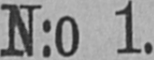N:o 1.
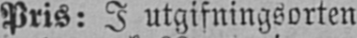Pris: I utgifningsorten
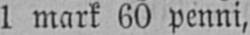1 mark 60 penni,
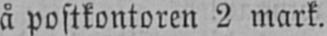å postkontoren 2 mark.
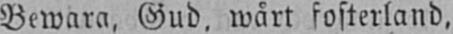Bewara, Gud, wårt fosterland,
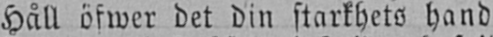Håll öfwer det din starkhets hand
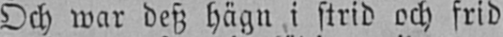Och war desz hägn i strid och frid,
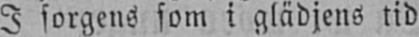I sorgens som i glädjens tid
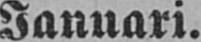Januari.
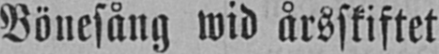Bönesång wid årsskiftet.
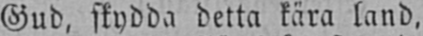Gud, skydda detta kära land,
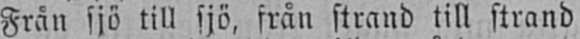Från sjö till sjö, från strand till strand;
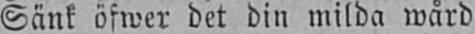Sänk öfwer det din milda wård
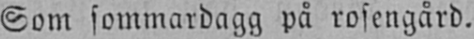Som sommardagg på rosengård.
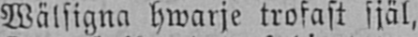Wälsigna hwarje trofast själ,
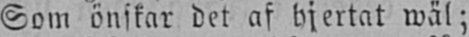Som önskar det af hjertat wäl;
